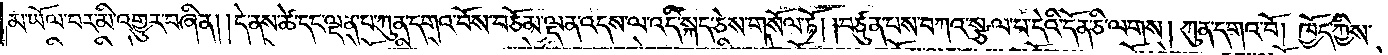མ་ཡོལ་བར་མི་འགྱུར་བཞིན། །དེ་ནས་ཚེ་དང་ལྡན་པ་ཀུན་དགའ་བོས་བཅོམ་ལྡན་འདས་ལ་འདི་སྐད་ཅེས་གསོལ་ཏོ། །བཙུན་པས་བཀའ་སྩལ་པ་དེའི་དོན་ཅི་ལགས། ཀུན་དགའ་བོ། ཁྱོད་ཀྱིས་
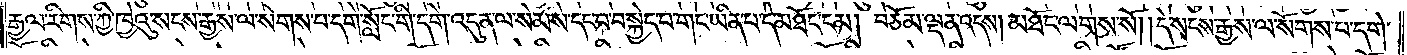རྒྱལ་རིགས་ཀྱི་ཁྱེའུ་སངས་རྒྱས་ལ་སོགས་པ་དགེ་སློང་གི་དགེ་འདུན་ལ་སེམས་དང་བ་བསྐྱེད་པ་གང་ཡིན་པ་དེ་མཐོང་ངམ། བཅོམ་ལྡན་འདས། མཐོང་ལགས་སོ། །དེ་སངས་རྒྱས་ལ་སོགས་པ་དགེ་
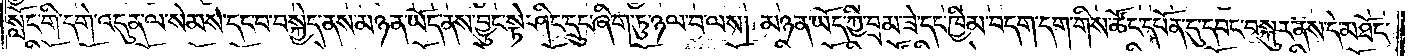སློང་གི་དགེ་འདུན་ལ་སེམས་དང་བ་བསྐྱེད་ནས་མཉན་ཡོད་ནས་བྱུང་སྟེ་ཤིང་དྲུང་ཞིག་ཏུ་ཉལ་བ་ལས། མཉན་ཡོད་ཀྱི་བྲམ་ཟེ་དང་ཁྱིམ་བདག་དག་གིས་ཚོང་དཔོན་དུ་དབང་བསྐུར་ནས་དེ་མཐོང་
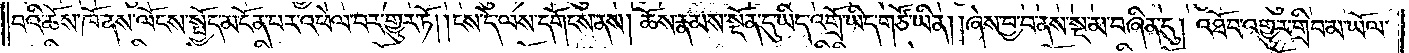བའི་ཆོས་ཁོ་ནས་ལོངས་སྤྱོད་མངོན་པར་འཕེལ་བར་གྱུར་ཏོ། །ངས་དེ་ལས་དགོངས་ནས། ཆོས་རྣམས་སྔོན་དུ་ཡིད་འགྲོ་ཡིད་གཙོ་ཡིན། །ཞེས་བྱ་བ་ནས་སྔ་མ་བཞིན་དུ། འཐོབ་འགྱུར་གྲིབ་མ་ཡོལ་
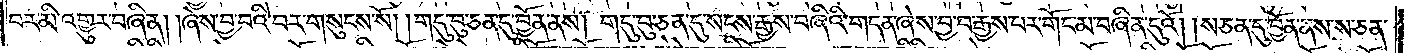བར་མི་འགྱུར་བཞིན། །ཞེས་བྱ་བའི་བར་གསུངས་སོ། །གདུ་བུ་ཅན་དུ་བྱོན་ནས། གདུ་བུ་ཅན་དུ་སངས་རྒྱས་བཞིའི་གདན་ཞེས་བྱ་བ་རྒྱས་པར་གོང་མ་བཞིན་དུའོ། །ས་ཅན་དུ་བྱོན་ནས་ས་ཅན་
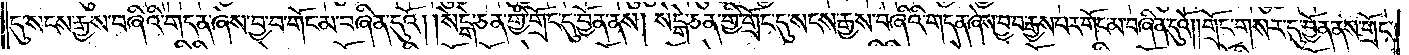དུ་སངས་རྒྱས་བཞིའི་གདན་ཞེས་བྱ་བ་གོང་མ་བཞིན་དུའོ། །སེངྒེ་ཅན་གྱི་གྲོང་དུ་བྱོན་ནས། སེངྒེ་ཅན་གྱི་གྲོང་དུ་སངས་རྒྱས་བཞིའི་གདན་ཞེས་བྱ་བ་རྒྱས་པར་གོང་མ་བཞིན་དུའོ། །གྲོང་གསར་དུ་བྱོན་ནས་གྲོང་
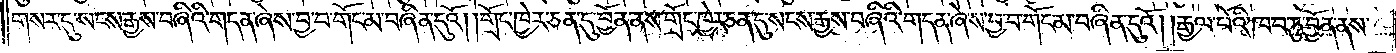གསར་དུ་སངས་རྒྱས་བཞིའི་གདན་ཞེས་བྱ་བ་གོང་མ་བཞིན་དུའོ། །གྲོང་ཁྱེར་ཅན་དུ་བྱོན་ནས་གྲོང་ཁྱེར་ཅན་དུ་སངས་རྒྱས་བཞིའི་གདན་ཞེས་བྱ་བ་གོང་མ་བཞིན་དུའོ། །རྒྱལ་པོའི་ཁབ་ཏུ་བྱོན་ནས་
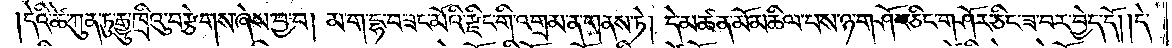།དེའི་ཚེ་ཀུན་ཏུ་རྒྱུ་ཁྲིའུ་བརྩེགས་ཞེས་བྱ་བ། མ་ག་དྷ་བཟང་མོའི་རྫིང་གི་འགྲམ་ན་གནས་ཏེ། དེ་མཚན་མོ་མཆིལ་བས་ཉ་གཤོར་ཅིང་གཤོར་ཅིང་ཟ་བར་བྱེད་དོ། །དེ་
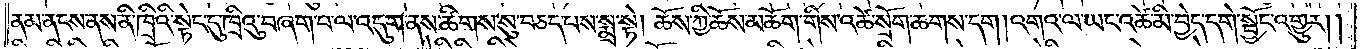ནམ་ནངས་ནས་ནི་ཁྲིའི་སྟེང་དུ་ཁྲིའུ་བཞག་པ་ལ་འདུག་ནས་ཚིགས་སུ་བཅད་པས་སྨྲ་སྟེ། ཆོས་ཀྱི་ཆོས་མཆོག་གིས་འཚེ་སྲོག་ཆགས་དག །འགའ་ལ་ཡང་འཚེ་མི་བྱེད་དགེ་སྦྱོང་འགྱུར། །
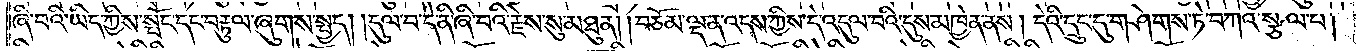ཞི་བའི་ཡིད་ཀྱིས་སྤོང་དང་བརྟུལ་ཞུགས་སྤྱད། །དུལ་བ་དེ་ནི་ཞི་བའི་རྗེས་སུ་མཐུན། །བཅོམ་ལྡན་འདས་ཀྱིས་དེ་འདུལ་བའི་དུས་མཁྱེན་ནས། དེའི་དྲུང་དུ་གཤེགས་ཏེ་བཀའ་སྩལ་པ།
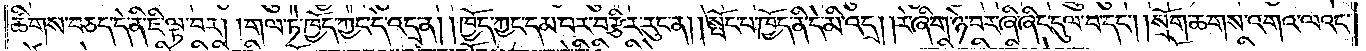ཚིགས་བཅད་དེ་ནི་ཇི་ལྟ་བར། །གལ་ཏེ་ཁྱོད་ཀྱང་དེ་འདྲ་ན། །ཁྱོད་ཀྱང་དམ་པར་བརྩིར་རུང་ན། །སྤོང་བ་ཁྱོད་ནི་དེ་མི་འདྲ། །རེ་ཞིག་ཉེ་བར་ཞི་ཞིང་དུལ་བ་དང༌། །སྲོག་ཆགས་འགའ་ལའང་
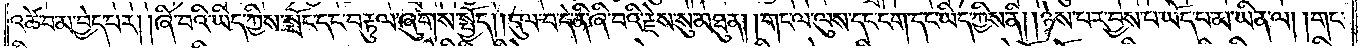འཚེ་བ་མ་བྱེད་པར། །ཞི་བའི་ཡིད་ཀྱིས་སྤོང་དང་བརྟུལ་ཞུགས་སྤྱོད། །དུལ་བ་དེ་ནི་ཞི་བའི་རྗེས་སུ་མཐུན། །གང་ལ་ལུས་དང་ངག་དང་ཡིད་ཀྱིས་ནི། །ཉེས་པར་བྱས་པ་ཡོད་པ་མ་ཡིན་ལ། །གང་
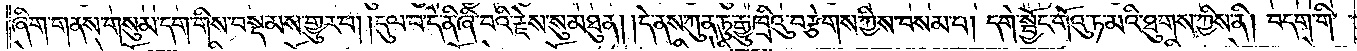ཞིག་གནས་གསུམ་དག་གིས་བསྡམས་གྱུར་པ། །དུལ་བ་དེ་ནི་ཞི་བའི་རྗེས་སུ་མཐུན། །དེ་ནས་ཀུན་ཏུ་རྒྱུ་ཁྲིའུ་བརྩེགས་ཀྱིས་བསམ་པ། དགེ་སྦྱོང་གོའུ་ཏ་མའི་ཐུགས་ཀྱིས་ནི། བདག་གི་
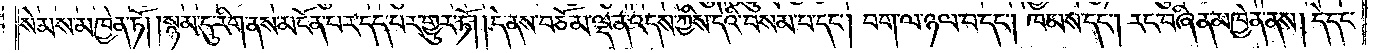སེམས་མཁྱེན་ཏོ། །སྙམ་དུ་རིག་ནས་མངོན་པར་དད་པར་གྱུར་ཏོ། །དེ་ནས་བཅོམ་ལྡན་འདས་ཀྱིས་དེའི་བསམ་པ་དང༌། བག་ལ་ཉལ་བ་དང༌། ཁམས་དང༌། རང་བཞིན་མཁྱེན་ནས། དེ་དང་
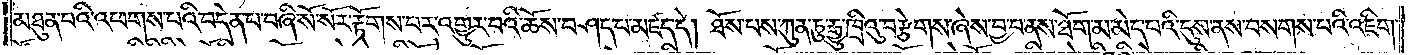མཐུན་པའི་འཕགས་པའི་བདེན་པ་བཞི་སོ་སོར་རྟོགས་པར་འགྱུར་བའི་ཆོས་བཤད་པ་མཛད་དེ། ཐོས་པས་ཀུན་ཏུ་རྒྱུ་ཁྲིའུ་བརྩེགས་ཞེས་བྱ་བ་ནས་ཐོག་མ་མེད་པའི་དུས་ནས་བསགས་པའི་འཇིག་
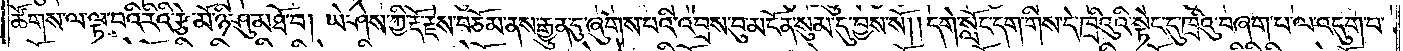ཚོགས་ལ་ལྟ་བའི་རིའི་རྩེ་མོ་ཉི་ཤུ་མཐོ་བ། ཡེ་ཤེས་ཀྱི་རྡོ་རྗེས་བཅོམ་ནས་རྒྱུན་དུ་ཞུགས་པའི་འབྲས་བུ་མངོན་སུམ་དུ་བྱས་སོ། །དགེ་སློང་དག་གིས་དེ་ཁྲིའུའི་སྟེང་དུ་ཁྲིའུ་བཞག་པ་ལ་འདུག་པ་
